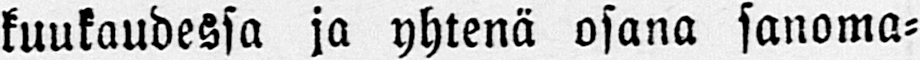kuukaudessa ja yhtenä osana sanoma-
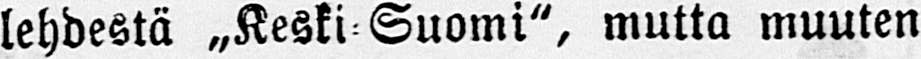lehdestä „Keski Suomi", mutta muuten
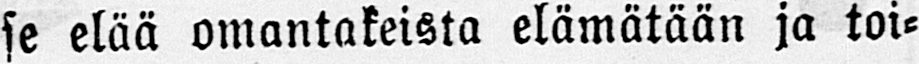se elää omantakeista elämätään ja toi-
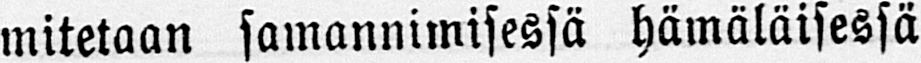mitetaan samannimisessä hämäläisessä
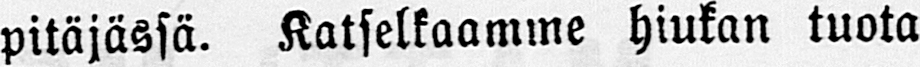pitäjässä. Katselkaamme hiukan tuota
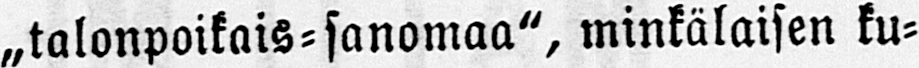„talonpoikais-sanomaa", minkälaisen ku-
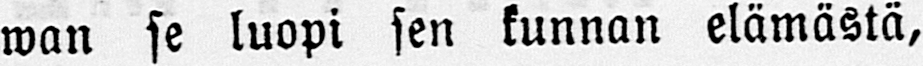wan se luopi sen kunnan elämästä,
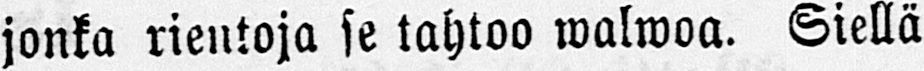jonka rientoja se tahtoo walwoa. Siellä
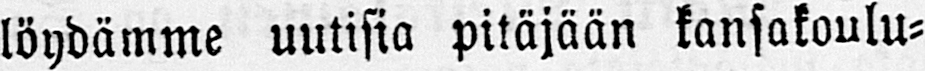löydämme uutisia pitäjään kansakoulu-
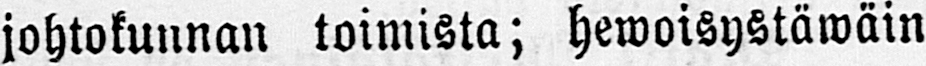johtokunnan toimista; hewoisystäwäin
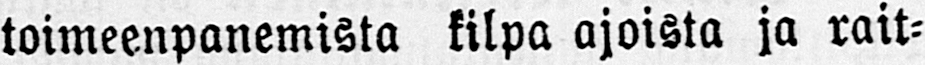toimeenpanemista kilpa ajoista ja rait-
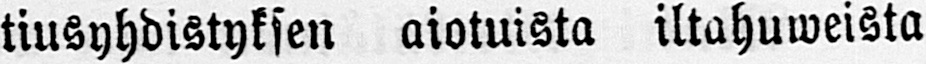tiusyhdistyksen aiotuista iltahuweista
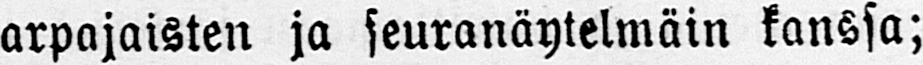arpajaisten ja seuranäytelmäin kanssa;
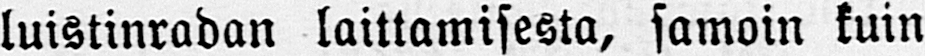luistinradan laittamisesta, samoin kuin
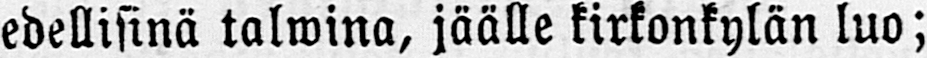edellisinä talwina, jäälle kirkonkylän luo;
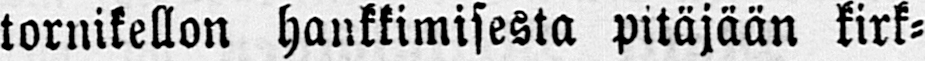tornikellon hankkimisesta pitäjään kirk-
